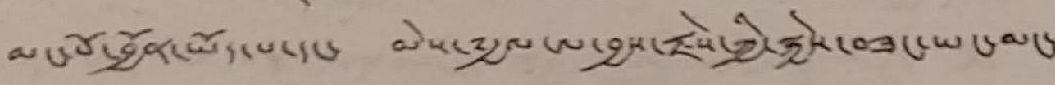མང་པོ་བྱོན་ཡོད་པ་དང་ མེས་༸རྒྱལ་ལ་བྱས་རྗེས་ཀྱི་སྐྱེས་བཟང་ཡང་མང་
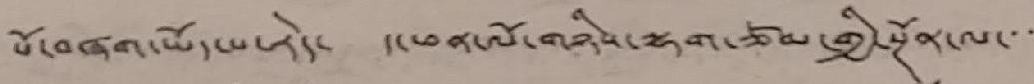པོ་བཞག་ཡོད་པ་རེད་ ད་ཕན་ལོ་གཉིས་ལྷག་ཙམ་གྱི་སྔོན་ལ་་་་
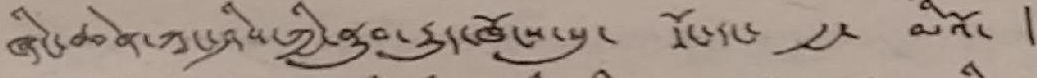ཞིང་ཆེན་ཀཱང་ཤིས་ཀྱི་ནུབ་རྒྱུད་ཁོངས་སུ་ དོང་རང་ རྒྱ་ མིའོ་
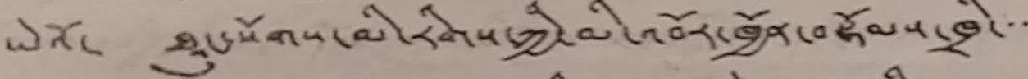ཡེའོ་ ཐུང་སོགས་མི་རིགས་ཀྱི་མི་འབོར་ཁྱོན་བསྡོམས་ཁྲི་་་་
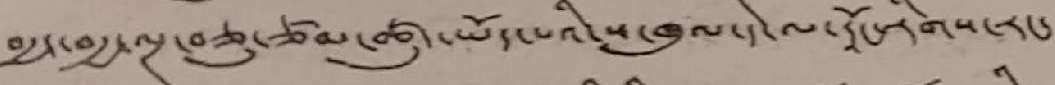བརྒྱད་བརྒྱ་ལྔ་བཅུ་ཙམ་ཚུད་ཡོད་པའི་ས་ཁུལ་དེ་ལ་དཱོང་རིགས་རང་
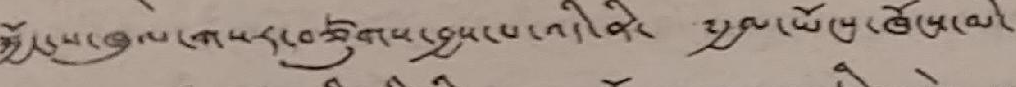སྐྱོང་ས་ཁུལ་གསར་བཙུགས་བྱས་པ་འདི་ནི་ ༸རྒྱལ་ཡོངས་ཁོངས་མི་
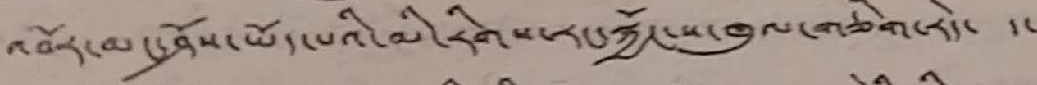འབོར་མང་ཤོས་ཡོད་པའི་མི་རིགས་རང་སྐྱོང་ས་ཁུལ་གཅིག་རེད་ ད་
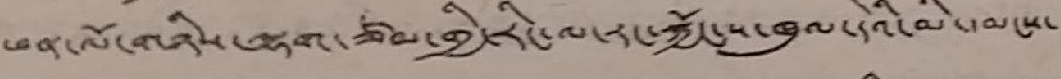ཕན་ལོ་གཉིས་ལྷག་ཙམ་གྱི་རིང་ལ་རང་སྐྱོང་ས་ཁུལ་དེའི་མི་དམངས་
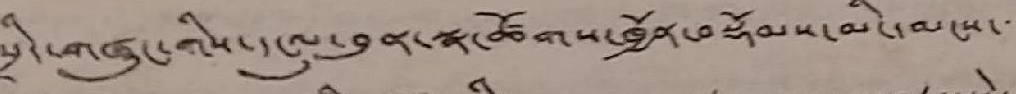སྲིད་གཞུང་གིས་དངུལ་བུན་སྣ་ཚོགས་ཁྱོན་བསྡོམས་མི་དམངས་་་
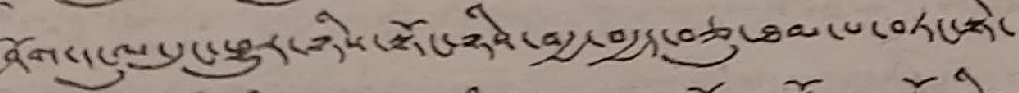ཤོག་དངུལ་དུང་ཕྱུར་ཉིས་སྟོང་ཉིས་བརྒྱ་བརྒྱད་བཅུ་ཐམ་པ་བཏང་སྟེ་
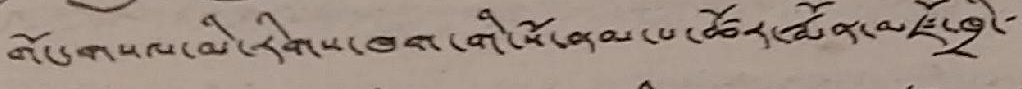གོང་གསལ་མི་རིགས་ཁག་གི་སོ་ནམ་པ་ཚོར་རྨོན་མཛོ་ཁྲི་་་
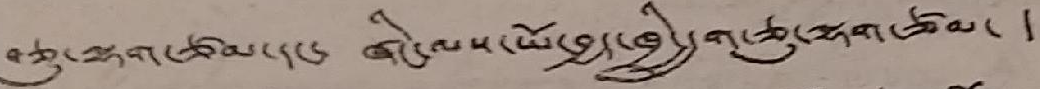བཅུ་ལྷག་ཙམ་དང་ ཞིང་ལས་ཡོ་བྱད་ཁྲི་དྲུག་ཅུ་ལྷག་ཙམ་ །
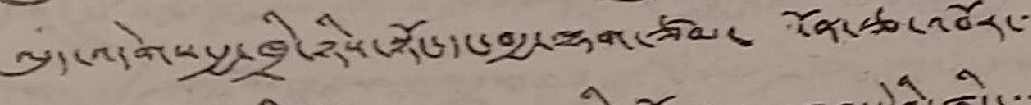ལུད་འདེགས་རྒྱ་ཁྲི་ཉིས་སྟོང་དང་བརྒྱ་ལྷག་ཙམ་ སོན་རྩ་འབོར་་་
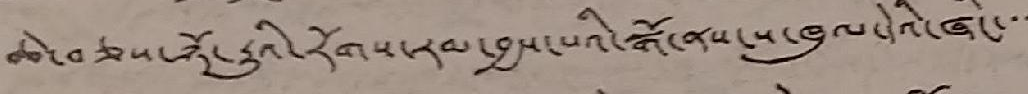ཆེ་བཅས་ཉོ་རྒྱུའི་རོགས་རམ་བྱས་པའི་སྒོ་ནས་ས་ཁུལ་དེའི་ཞིང་་་་
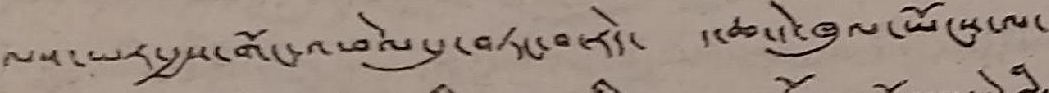ལས་ཡར་རྒྱས་གོང་འཕེལ་དུ་བཏང་བ་རེད་ ད་ཆ་དེ་ཁུལ་ཡོངས་ལ་
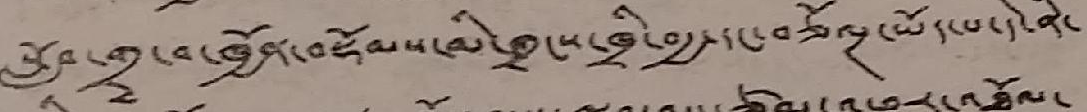སློབ་གྲྭ་བ་ཁྱོན་བསྡོམས་མི་གྲངས་ཁྲི་བརྒྱ་དང་བཅོ་ལྔ་ཡོད་པ་དེ་ནི་
